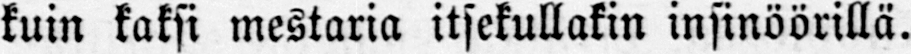kuin kaksi mestaria itsekullakin insinöörillä.
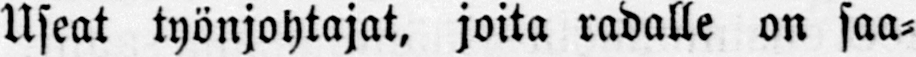Useat työnjohtajat, joita radalle on saa-
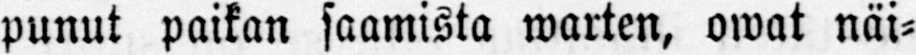punut paikan saamista warten, owat näi-
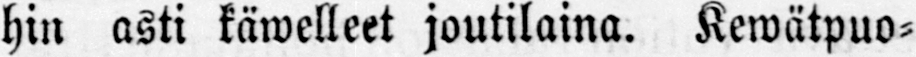hin asti kawelleet joutilaina. Kewätpuo-
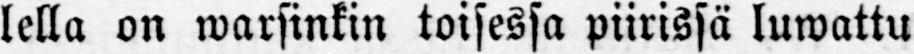lella on warsinkin toisessa piirissä luwattu
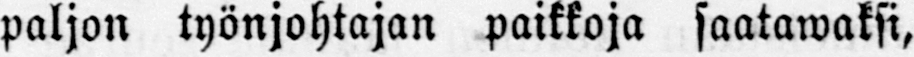paljon työnjohtajan paikkoja saatawaksi,
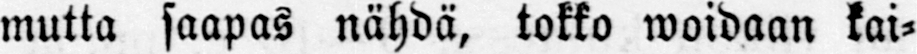mutta saapas nähdä, tokko woidaan kai-
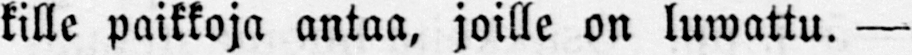kille paikkoja antaa, joille on luwattu. —
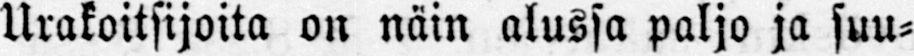Urakoitsijoita on näin alussa paljo ja suu-
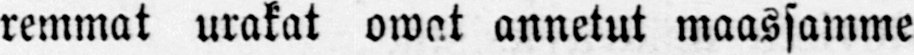remmat urakat owat annetut maassamme
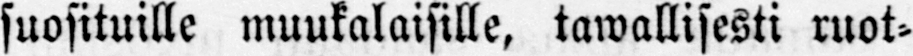suosituille muukalaisille, tawallisesti ruot-
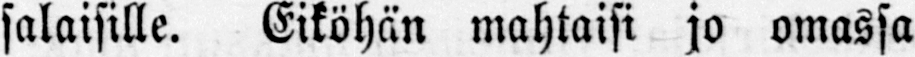salaisille. Eiköhän mahtaisi jo omassa
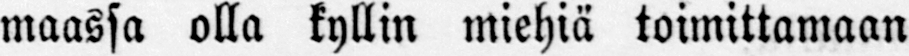maassa olla kyllin miehiä toimittamaan
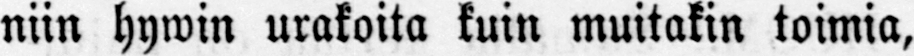niin hywin urakoita kuin muitakin toimia,
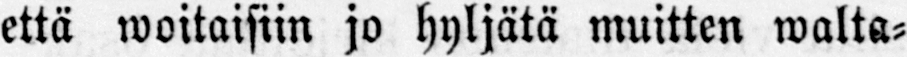että woitaisiin jo hyljätä muitten walta-
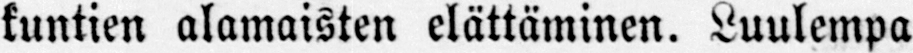kuntien alamaisten elättäminen. Luulempa
